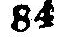84
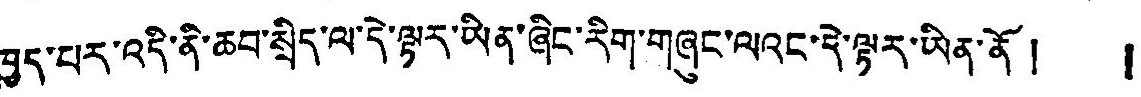ཁད་པར་འདི་ནི་ཆབ་སྲིད་ལ་དེ་ལྟར་ཡིན་ཞིང་རིག་གཞུང་ལའང་དེ་ལྟར་ཡིན་ནོ ། །
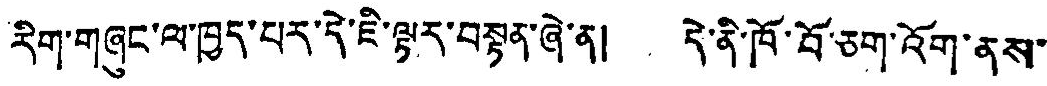རིག་གཞུང་ལ་ཁྱད་པར་དེ་ཇི་ལྟར་བསྟུན་ཞེ་ན། དེ་ནི་ཁོ་བོ་ཅག་འོག་ནས་
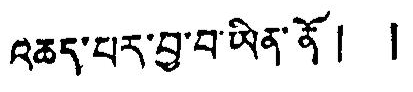འཆད་པར་བྱ་བ་ཡིན་ནོ། །
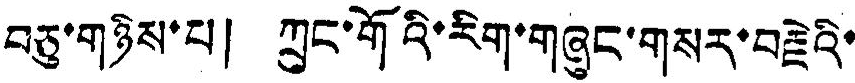བཅུ་གཉིས་པ། ཀྲུང་གོའི་རིག་གཞུང་གསར་བརྗེའི་
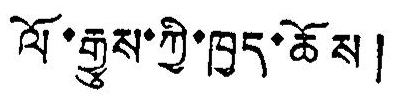ལོ་རྒྱུས་ཀྱི་ཁྱད་ཆོས།
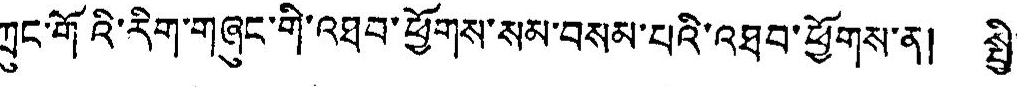ཀྲུང་གོའི་རིག་གཞུང་གི་འཐབ་ཕྱོགས་སམ་བསམ་པའི་འཐབ་ཕྱོགས་ན། སྤྱི་
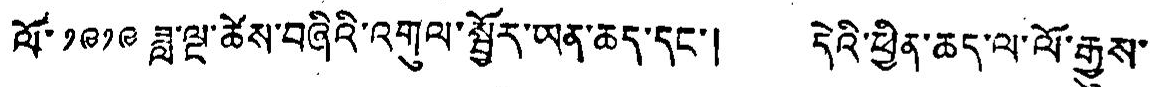ལོ་ ༡༩༡༩ ཟླ་ལྔ་ཚེས་བཞིའི་འགུལ་སྦྱོར་ཡན་ཆད་དང་། དེའི་ཕྱིན་ཆད་ལ་ལོ་རྒྱུས་
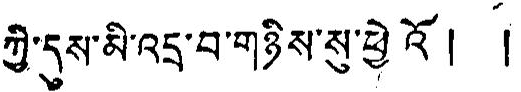ཀྱི་དུས་མི་འདྲ་བ་གཉིས་སུ་ཕྱེ འོ ། །
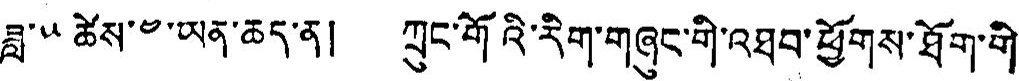ཟླ་༥ ཚེས་༤་ཡན་ཆད་ན། ཀྲུང་གོའི་རིག་གཞུང་གི་འཐབ་ཕྱོགས་ཐོག་གི་
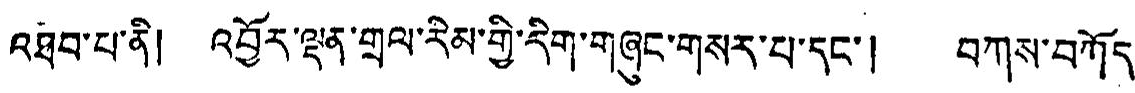འཐབ་པ་ནི། འབྱོར་ལྡན་གྲལ་རིམ་གྱི་རིག་གཞུང་གསར་པ་དང་། བཀས་བཀོད་
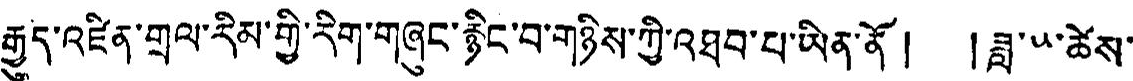རྒྱུད་འཛིན་གྲལ་རིམ་གྱི་རིག་གཞུང་རྙིང་བ་གཉིས་ཀྱི་འཐབ་པ་ཡིན་ནོ། །ཟླ་༥་ཚེས་
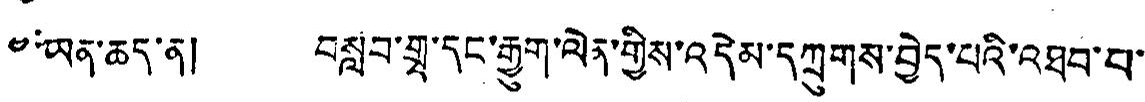༤་ཡན་ཆད་ན། བསླབ་གྲྭ་དང་རྒྱུག་ལེན་གྱིས་འདེམ་དཀྲུགས་བྱེད་པའི་འཐབ་བ་
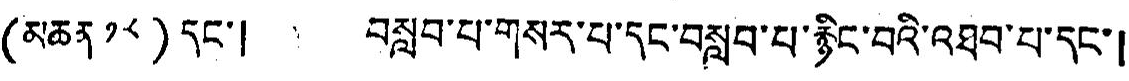(མཆན ༡༨) དང་། བསླབ་པ་གསར་པ་དང་བསླབ་པ་རྙིང་བའི་འཐབ་པ་དང་།
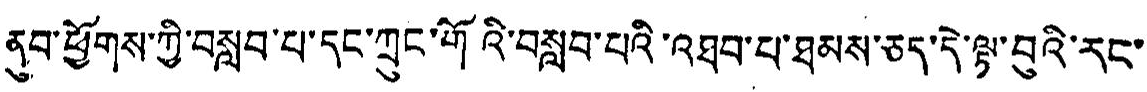ནུབ་ཕྱོགས་ཀྱི་བསླབ་པ་དང་ཀྲུང་གོའི་བསླབ་པའི་འཐབ་པ་ཐམས་ཅད་དེ་ལྟ་བུའི་རང་
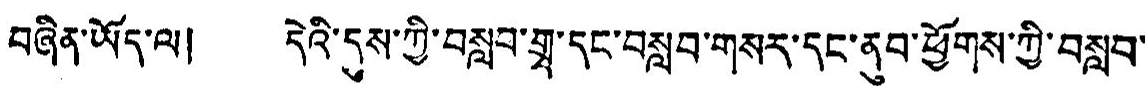བཞིན་ཡོད་ལ། དེའི་དུས་ཀྱི་བསླབ་གྲྭ་དང་བསླབ་གསར་དང་ནུབ་ཕྱོགས་ཀྱི་བསླབ་
